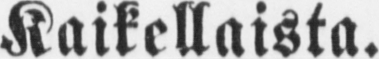Kaikellaista.
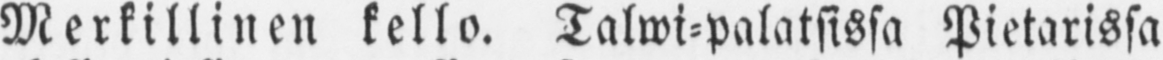Merkillinen kello. Talwi-palatsissa Pietarissa
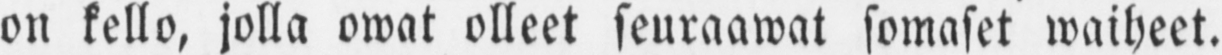on kello, jolla owat olleet seuraawat somaset waiheet.
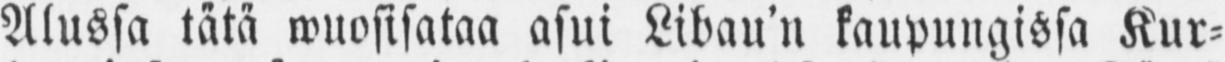Alussa tätä wuosisataa asui Libau'n kaupungissa Kur-
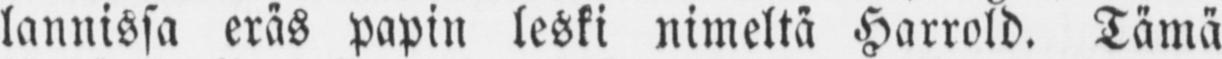lannissa eräs papin leski nimeltä Harrold. Tämä
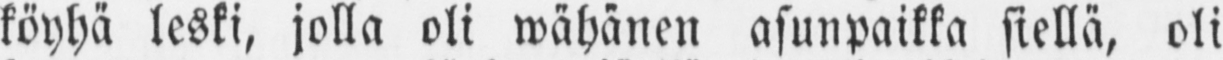köyhä leski, jolla oli wähänen asunpaikka siellä, oli
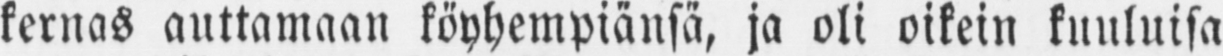kernas auttamaan köyhempiänsä, ja oli oikein kuuluisa
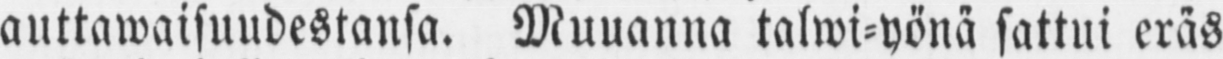auttawaisuudestansa. Muuanna talwi-yönä sattui eräs
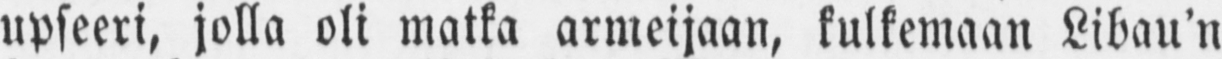upseeri, jolla oli matka armeijaan, kulkemaan Libau'n
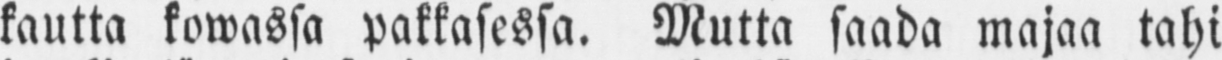kautta kowassa pakkasessa. Mutta saada majaa tahi
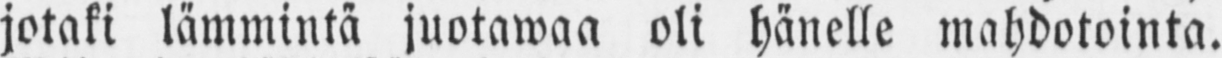jotaki lämmintä juotawaa oli hänelle mahdotointa.
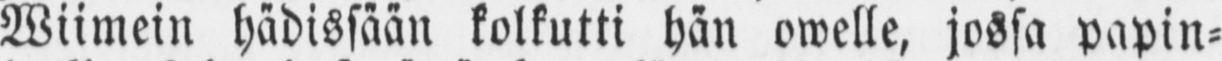Wiimein hädissään kolkutti hän owelle, jossa papin-
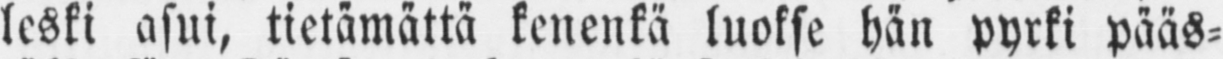leski asui, tietämättä kenenkä luokse hän pyrki pääs-
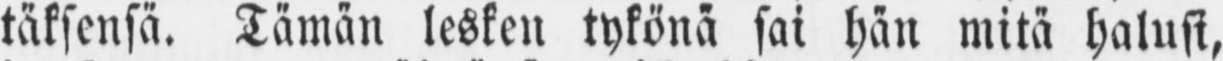täksensä. Tämän lesken tykönä sai hän mitä halusi,
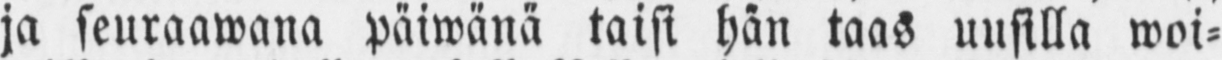ja seuraawana päiwänä taisi hän taas uusilla woi-
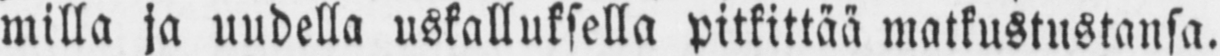milla ja uudella uskalluksella pitkittää matkustustansa.
